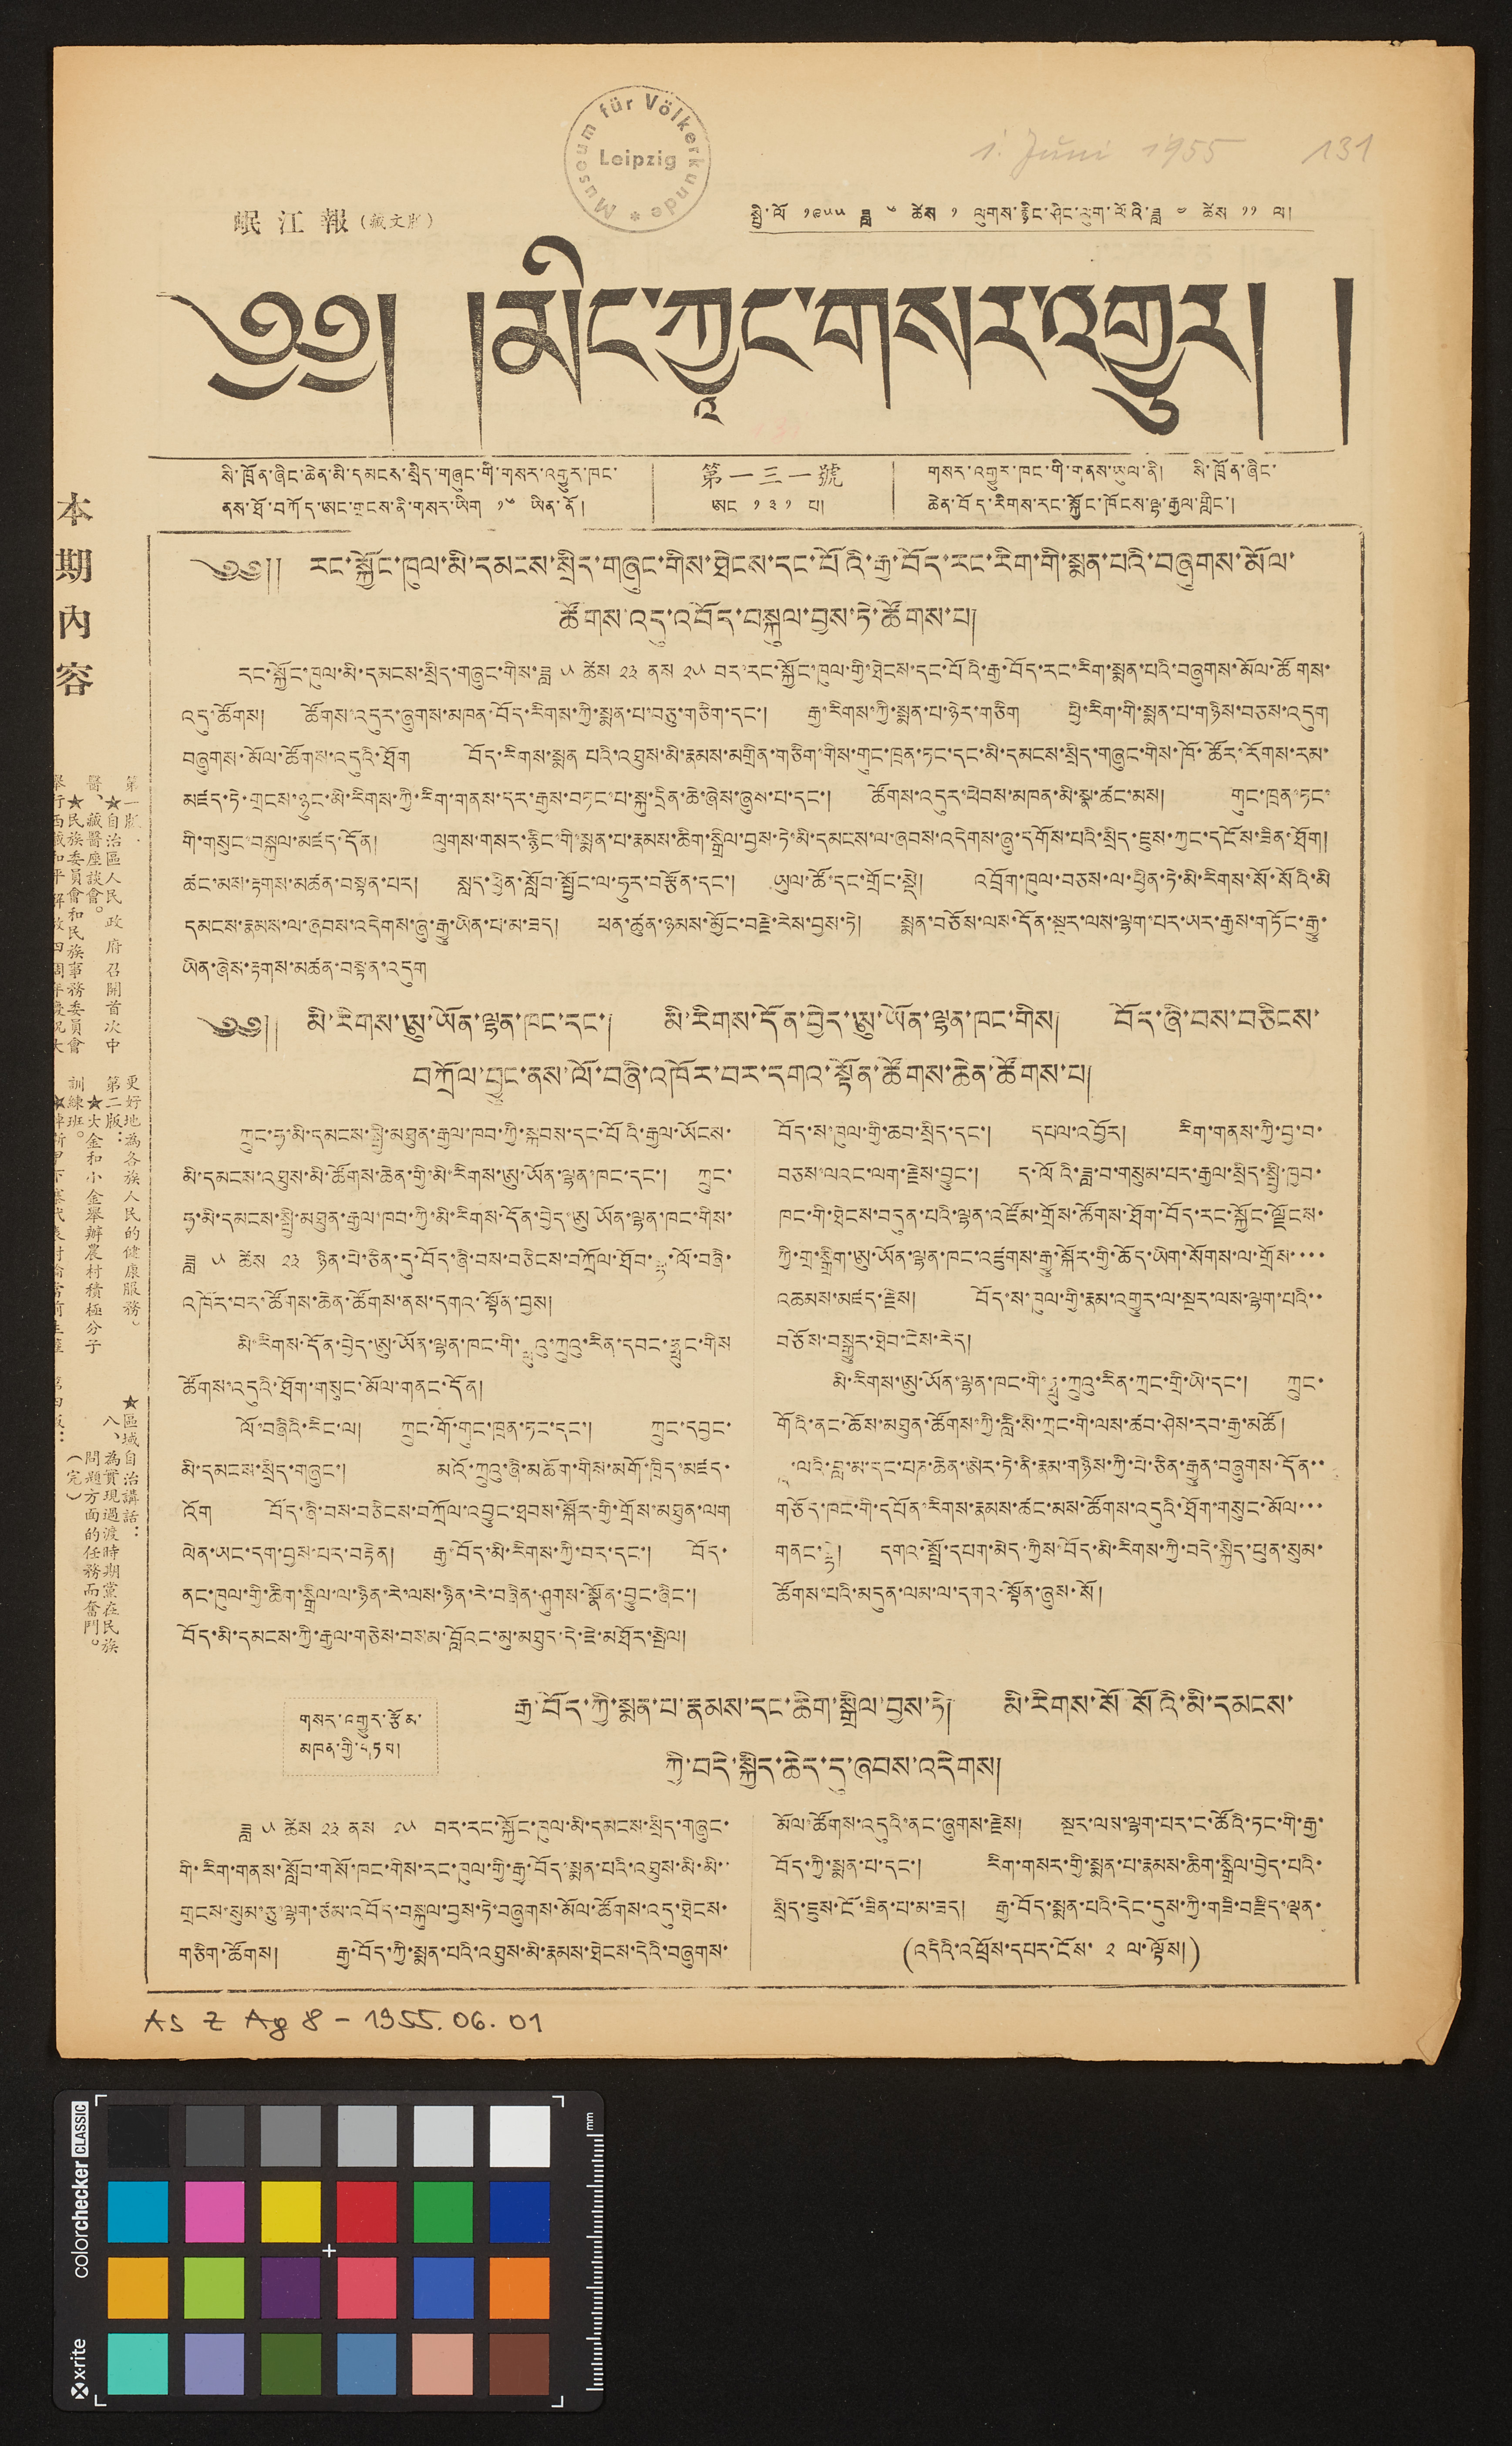岷 江 報 （藏文版） སྤྱི་ལོ་ ༡༩༥༥ ཟླ ༦ ཚེས ༡ ལུགས་རྙིན་ཤིང་ལུག་ལོའི་ཟླ ༤ ཚེས ༡༡ ལ།
༄༅། །མིང་ཀྱཱང་གསར་འགྱུར། །
本 期 內 容
第一版：
★自治區人民 政 府 召開首次中
醫、藏醫座談會。
★民族委員會和民族事務委員會
舉行西藏和平 解 放 四周年慶祝大
更好地爲各族人民的健康服務。
第二版：
★大金和小金舉辦農村積極分子
訓練班。
★綽斯甲下寨代表討論當前生產
★區域自治講話：
八、爲實現過渡時期黨在民族
問題方面的任務而奮鬥。
（完）
第四版：
༄༅༎ རང་སྐྱོང་ཁུལ་མི་དམངས་སྲིད་གཞུང་གིས་ཐེངས་དང་པོའི་རྒྱ་བོད་རང་རིག་གི་སྨན་པའི་བཞུགས་མོལ་
ཚོགས་འདུ་འབོད་བསྐུལ་བྱས་ཏེ་ཚོགས་པ།
རང་སྐྱོང་ཁུལ་མི་དམངས་སྲིད་གཞུང་གིས་ཟླ ༥ ཚེས ༢༣ ནས ༢༥ བར་རང་སྐྱོང་ཁུལ་གྱི་ཐེངས་དང་པོའི་རྒྱ་བོད་རང་རིག་སྨན་པའི་བཞུགས་མོལ་ཚོགས་
འདུ་ཚོགས། ཚོགས་འདུར་ཞུགས་མཁན་བོད་རིགས་ཀྱི་སྨན་པ་བཅུ་གཅིག་དང་། རྒྱ་རིགས་ཀྱི་སྨན་པ་ཉེར་གཅིག ཕྱི་རིག་གི་སྨན་པ་གཉིས་བཅས་འདུག
བཞུགས་མོལ་ཚོགས་འདུའི་ཐོག བོད་རིགས་སྨན པའི་འཐུས་མི་རྣམས་མགྲིན་གཅིག་གིས་གུང་ཁྲན་ཏང་དང་མི་དམངས་སྲིད་གཞུང་གིས་ཁོ་ཚོར་རོགས་རམ་
མཛད་ཏེ་གྲངས་ཉུང་མི་རིགས་ཀྱི་རིག་གནས་དར་རྒྱས་བཏང་པ་སྐུ་དྲིན་ཆེ་ཞེས་ཞུས་པ་དང་། ཚོགས་འདུར་ཕེབས་མཁན་མི་སྣ་ཚང་མས། གུང་ཁྲན་ཏང་
གི་གསུང་བསྐུལ་མཛད་དོན། ལུགས་གསར་རྙིང་གི་སྨན་པ་རྣམས་ཆིག་སྒྲིལ་བྱས་ཏེ་མི་དམངས་ལ་ཞབས་འདེགས་ཞུ་དགོས་པའི་སྲིད་ཇུས་ཀྱང་དངོས་ཟིན་ཐོག།།
ཚང་མས་རྟགས་མཚན་བསྟན་པར། སླད་ཕྱིན་སློབ་སྤྱང་ལ་ཧུར་བརྩོན་དང་། ཡུལ་ཚོ་དང་གྲོང་སྡེ། འབྲོག་ཁུལ་བཅས་ལ་ཕྱིན་ཏེ་མི་རིགས་སོ་སོའི་མི
དམངས་རྣམས་ལ་ཞབས་འདེགས་ཞུ་རྒྱུ་ཡིན་པ་མ་ཟད། ཕན་ཚུན་ཉམས་མྱོང་བརྗེ་རེས་བྱས་ཏེ། སྨན་བཅོས་ལས་དོན་སྔར་ལས་ལྷག་པར་ཡར་རྒྱས་གཏོང་རྒྱུ་
ཡིན་ཞེས་རྟགས་མཚན་བསྟན་འདུག
༄༅༎ མི་རིགས་ཨུ་ཡོན་ལྷན་ཁང་དང་། མི་རིག་སྡོན་བྱེད་ཨུ་ཡོན་ལྷན་ཁང་གིས། བོད་ཞི་བས་བཅིངས་
བཀྲོལ་བྱུང་ནས་ལོ་བཞི་འཁོར་བར་དགའ་སྟོན་ཚོགས་ཆེན་ཚོགས་པ།
ཀྲུང་ཧྭ་མི་དམངས་སྤྱི་མཐུན་རྒྱལ་ཁབ་ཀྱི་སྐབས་དང་པོའི་རྒྱལ་ཡོངས་
མི་དམངས་འཐུས་མི་ཚོགས་ཆེན་གྱི་མི་རིགས་ཨུ་ཡོན་ལྷན་ཁང་དང་། ཀྲུང་
ཧྭ་མི་དམངས་སྤྱི་མཐུན་རྒྱལ་ཁབ་ཀྱི་མི་རིགས་དོན་བྱེད་ཨུ ཡོན་ལྷན་ཁང་གིས་
ཟླ ༥ ཚེས ༢༣ ཉིན་པེ་ཅིན་དུ་བོད་ཞི་བས་བཅིངས་བཀྲོལ་ཐོབ་ལྟ་ལོ་བཞི་
འཁོར་བར་ཚོགས་ཆེན་ཚོགས་ནས་དགའ་སྟོན་བྱས།
མི་རིགས་དོན་བྱེད་ཨུ་ཡོན་ལྷན་ཁང་གི་ཧྥུའུ་ཀྲུའུ་རིན་དབང་ཧྥུང་གིས
ཚོགས་འདུའི་ཐོག་གསུང་མོལ་གནང་དོན།
ལོ་བཞིའི་རིང་ལ། ཀྲུང་གོ་གུང་ཁྲན་ཏང་དང་། ཀྲུང་དབྱང་
མི་དམངས་སྲིད་གཞུང་། མའོ་ཀྲུའུ་ཞི་མཆོག་གིས་མགོ་ཁྲིད་མཛད་
འོག བོད་ཞི་བས་བཅིངས་བཀྲོལ་འབྱུང་ཐབས་སྐོར་གྱི་གྲོས་མཐུན་ལག
ལེན་ཡང་དག་བྱས་པར་བརྟེན། རྒྱ་བོད་མི་རིགས་ཀྱི་བར་དང་། བོད་
ནང་ཁུལ་གྱི་ཆིག་སྒྲིལ་ལ་ཉིན་རེ་ལས་ཉིན་རེ་བཞིན་ཤུགས་བྱུང་ཞིང་།
བོད་མི་དམངས་ཀྱི་རྒྱལ་གཅེས་བསམ་བློའང་མུ་མཐུད་དེ་ཇེ་མཐོར་སྤེལ།
བོད་ས་ཁུལ་གྱི་ཆབ་སྲིད་དང་། དཔལ་འབྱོར། རིག་གནས་ཀྱི་བྱ་བ་
བཅས་ལའང་ལག་རྗེས་བྱུང་། ད་ལོའི་ཟླ་བ་གསུམ་པར་རྒྱལ་སྲིད་སྤྱི་ཁྱབ་
ཁང་གི་ཐེངས་བདུན་པའི་ལྷན་འཛོམ་གྲོས་ཚོགས་ཐོག་བོད་རང་སྐྱོང་ལྗོངས་
ཀྱི་གྲ་སྒྲིག་ཨུ་ཡོན་ལྷན་ཁང་འཛུགས་རྒྱུ་སྐོར་གྱི་ཆོད་ཡིག་སོགས་ལ་གྲོས་་་་
འཆམས་མཛད་རྗེས། བོད་ས་ཁུལ་གྱི་རྣམ་འགྱུར་ལ་སྔར་ལས་ལྷག་པའི་་
བཅོས་བསྒྱུར་ཐེབ་ངེས་རེད།
མི་རིགས་ཨུ་ཡོན་ལྷན་ཁང་གི་ཧྥུ་ཀྲུའུ་རིང་ཀྲང་གྲི་ཡི་དང་། ཀྲུང་
གོའི་ནང་ཆོས་མཐུན་ཚོགས་ཀྱི་རླི་སི་ཀྲང་གི་ལས་ཚབ་ཤེས་རབ་རྒྱ་མཚོ།
ཏཱ་ལའི་བླ་མ་དང་པཎ་ཆེན་ཨེར་ཏེ་ནི་རྣམ་གཉིས་ཀྱི་པེ་ཅིན་རྒྱུན་བཞུགས་དོན་་
གཅོད་ཁང་གི་དཔོན་རིགས་རྣམས་ཚང་མས་ཚོགས་འདུའི་ཐོག་གསུང་མོལ་་་
གནང་སྟེ། དགའ་སྤྲོ་དཔག་མེད་ཀྱིས་བོད་མི་རིགས་ཀྱི་བདེ་སྐྱིད་ཕུན་སུམ་
ཚོགས་པའི་མདུན་ལམ་ལ་དགའ་སྟོན་ཞུས་སོ །
གསར་འགྱུར་རྩོམ་
མཁན་གྱི་གཏམ།
རྒྱ་བོད་ཀྱི་སྨན་པ་རྣམས་དང་ཆིག་སྒྲིལ་བྱས་ཏེ། མི་རིགས་སོ སོའི་མི་དམངས་
ཀྱི་བདེ་སྐྱིད་ཆེད་དུ་ཞབས་འདེགས།
ཟླ ༥ ཚེས ༢༣ ནས ༢༥ བར་རང་སྐྱོང་ཁུལ་མི་དམངས་སྲིད་གཞུང་
གི་རིག་གནས་སློབ་གསོ་ཁང་གིས་རང་ཁུལ་གྱི་རྒྱ་བོད་སྨན་པའི་འཐུས་མི་མི་་
གྲངས་སུམ་ཅུ་ལྷག་ཙམ་འབོད་བསྐུལ་བྱས་ཏེ་བཞུགས་མོལ་ཚོགས་འདུ་ཐེངས་
གཅིག་ཚོགས། རྒྱ་བོད་ཀྱི་སྨན་པའི་འཐུས་མི་རྣམས་ཐེངས་དེའི་བཞུགས་
མོལ་ཚོགས་འདུའི་ནང་ཞུགས་རྗེས། སྔར་ལས་ལྷག་པར་ང་ཚོའི་ཏང་གི་རྒྱ་
བོད་ཀྱི་སྨན་པ་དང་། རིག་གསར་གྱི་སྨན་པ་རྣམས་ཆིག་སྒྲིལ་བྱེད་པའི་
སྲིད་ཇུས་ངོ་ཟིན་པ་མ་ཟད། རྒྱ་བོད་སྨན་པའི་དེང་དུས་ཀྱི་གཟི་བརྫིད་ལྡན་
(འདིའི་འཕྲོས་དཔར་ངོས་ ༢ ལ་ལྟོས།)
